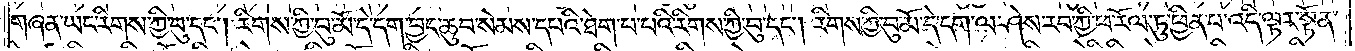གཞན་ཡང་རིགས་ཀྱི་བུ་དང༌། རིགས་ཀྱི་བུ་མོ་དེ་དག་བྱང་ཆུབ་སེམས་དཔའི་ཐེག་པ་པའི་རིགས་ཀྱི་བུ་དང༌། རིགས་ཀྱི་བུ་མོ་དེ་དག་ལ་ཤེས་རབ་ཀྱི་ཕ་རོལ་ཏུ་ཕྱིན་པ་འདི་ལྟར་སྟོན་
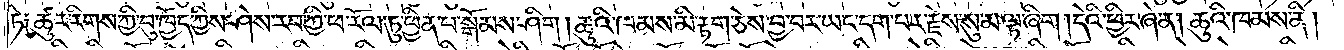ཏེ༑ ཚུར་རིགས་ཀྱི་བུ་ཁྱོད་ཀྱིས་ཤེས་རབ་ཀྱི་ཕ་རོལ་ཏུ་ཕྱིན་པ་སྒོམས་ཤིག །ཆུའི་ཁམས་མི་རྟག་ཅེས་བྱ་བར་ཡང་དག་པར་རྗེས་སུ་མ་ལྟ་ཞིག །དེ་ཅིའི་ཕྱིར་ཞེ་ན། ཆུའི་ཁམས་ནི།
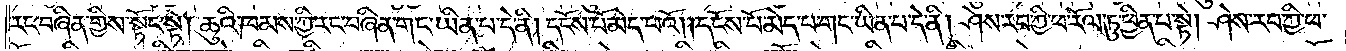རང་བཞིན་གྱིས་སྟོང་སྟེ། ཆུའི་ཁམས་ཀྱི་རང་བཞིན་གང་ཡིན་པ་དེ་ནི། དངོས་པོ་མེད་པའོ། །དངོས་པོ་མེད་པ་གང་ཡིན་པ་དེ་ནི། ཤེས་རབ་ཀྱི་ཕ་རོལ་ཏུ་ཕྱིན་པ་སྟེ། ཤེས་རབ་ཀྱི་ཕ་
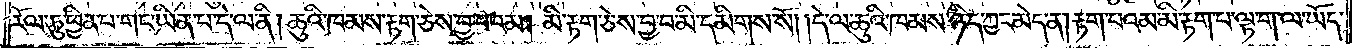རོལ་ཏུ་ཕྱིན་པ་གང་ཡིན་པ་དེ་ལ་ནི། ཆུའི་ཁམས་རྟག་ཅེས་བྱ་བའམ། མི་རྟག་ཅེས་བྱ་བ་མི་དམིགས་སོ། །དེ་ལ་ཆུའི་ཁམས་ཉིད་ཀྱང་མེད་ན། རྟག་པའམ་མི་རྟག་པ་ལྟ་ག་ལ་ཡོད་
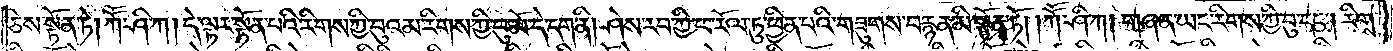ཅེས་སྟོན་ཏེ། ཀཽ་ཤི་ཀ། དེ་ལྟར་སྟོན་པའི་རིགས་ཀྱི་བུའམ་རིགས་ཀྱི་བུ་མོ་དེ་དག་ནི། ཤེས་རབ་ཀྱི་ཕ་རོལ་ཏུ་ཕྱིན་པའི་གཟུགས་བརྙན་མི་སྟོན་ཏོ། །ཀཽ་ཤི་ཀ། གཞན་ཡང་རིགས་ཀྱི་བུ་དང༌། རིགས་
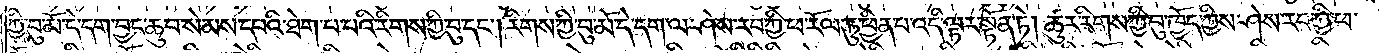ཀྱི་བུ་མོ་དེ་དག་བྱང་ཆུབ་སེམས་དཔའི་ཐེག་པ་པའི་རིགས་ཀྱི་བུ་དང༌། རིགས་ཀྱི་བུ་མོ་དེ་དག་ལ་ཤེས་རབ་ཀྱི་ཕ་རོལ་ཏུ་ཕྱིན་པ་འདི་ལྟར་སྟོན་ཏེ། ཚུར་རིགས་ཀྱི་བུ་ཁྱོད་ཀྱིས་ཤེས་རབ་ཀྱི་ཕ་
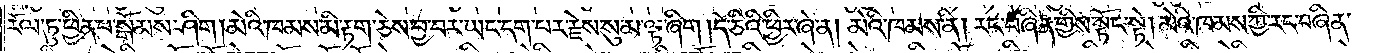རོལ་ཏུ་ཕྱིན་པ་སྒོམས་ཤིག །མེའི་ཁམས་མི་རྟག་ཅེས་བྱ་བར་ཡང་དག་པར་རྗེས་སུ་མ་ལྟ་ཞིག །དེ་ཅིའི་ཕྱིར་ཞེ་ན། །མེའི་ཁམས་ནི། རང་བཞིན་གྱིས་སྟོང་སྟེ། མེའི་ཁམས་ཀྱི་རང་བཞིན་
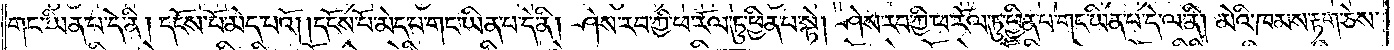གང་ཡིན་པ་དེ་ནི། དངོས་པོ་མེད་པའོ། །དངོས་པོ་མེད་པ་གང་ཡིན་པ་དེ་ནི། ཤེས་རབ་ཀྱི་ཕ་རོལ་ཏུ་ཕྱིན་པ་སྟེ། ཤེས་རབ་ཀྱི་ཕ་རོལ་ཏུ་ཕྱིན་པ་གང་ཡིན་པ་དེ་ལ་ནི། མེའི་ཁམས་རྟག་ཅེས་
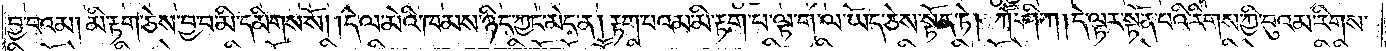བྱ་བའམ། མི་རྟག་ཅེས་བྱ་བ་མི་དམིགས་སོ། །དེ་ལ་མེའི་ཁམས་ཉིད་ཀྱང་མེད་ན། རྟག་པའམ་མི་རྟག་པ་ལྟ་ག་ལ་ཡོད་ཅེས་སྟོན་ཏེ། ཀཽ་ཤི་ཀ། དེ་ལྟར་སྟོན་པའི་རིགས་ཀྱི་བུའམ་རིགས་
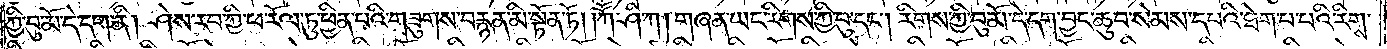ཀྱི་བུ་མོ་དེ་དག་ནི། ཤེས་རབ་ཀྱི་ཕ་རོལ་ཏུ་ཕྱིན་པའི་གཟུགས་བརྙན་མི་སྟོན་ཏོ། །ཀཽ་ཤི་ཀ། གཞན་ཡང་རིགས་ཀྱི་བུ་དང༌། རིགས་ཀྱི་བུ་མོ་དེ་དག་བྱང་ཆུབ་སེམས་དཔའི་ཐེག་པ་པའི་རིགས་
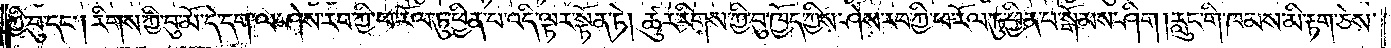ཀྱི་བུ་དང༌། རིགས་ཀྱི་བུ་མོ་དེ་དག་ལ་ཤེས་རབ་ཀྱི་ཕ་རོལ་ཏུ་ཕྱིན་པ་འདི་ལྟར་སྟོན་ཏེ། ཚུར་རིགས་ཀྱི་བུ་ཁྱོད་ཀྱིས་ཤེས་རབ་ཀྱི་ཕ་རོལ་ཏུ་ཕྱིན་པ་སྒོམས་ཤིག །རླུང་གི་ཁམས་མི་རྟག་ཅེས་
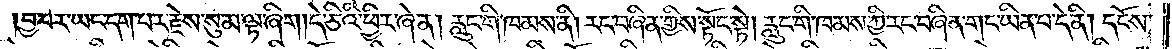བྱ་བར་ཡང་དག་པར་རྗེས་སུ་མ་ལྟ་ཞིག །དེ་ཅིའི་ཕྱིར་ཞེ་ན། རླུང་གི་ཁམས་ནི། རང་བཞིན་གྱིས་སྟོང་སྟེ། རླུང་གི་ཁམས་ཀྱི་རང་བཞིན་གང་ཡིན་པ་དེ་ནི། དངོས་
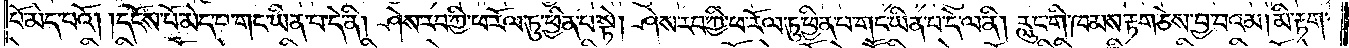པོ་མེད་པའོ། །དངོས་པོ་མེད་པ་གང་ཡིན་པ་དེ་ནི། ཤེས་རབ་ཀྱི་ཕ་རོལ་ཏུ་ཕྱིན་པ་སྟེ། ཤེས་རབ་ཀྱི་ཕ་རོལ་ཏུ་ཕྱིན་པ་གང་ཡིན་པ་དེ་ལ་ནི། རླུང་གི་ཁམས་རྟག་ཅེས་བྱ་བའམ། མི་རྟག་
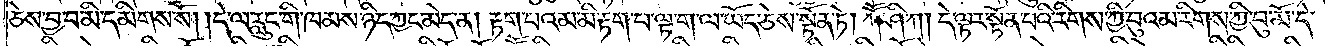ཅེས་བྱ་བ་མི་དམིགས་སོ། །དེ་ལ་རླུང་གི་ཁམས་ཉིད་ཀྱང་མེད་ན། རྟག་པའམ་མི་རྟག་པ་ལྟ་ག་ལ་ཡོད་ཅེས་སྟོན་ཏེ། ཀཽ་ཤི་ཀ། དེ་ལྟར་སྟོན་པའི་རིགས་ཀྱི་བུའམ་རིགས་ཀྱི་བུ་མོ་དེ་
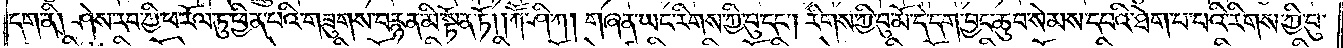དག་ནི། ཤེས་རབ་ཀྱི་ཕ་རོལ་ཏུ་ཕྱིན་པའི་གཟུགས་བརྙན་མི་སྟོན་ཏོ། །ཀཽ་ཤི་ཀ། གཞན་ཡང་རིགས་ཀྱི་བུ་དང༌། རིགས་ཀྱི་བུ་མོ་དེ་དག་བྱང་ཆུབ་སེམས་དཔའི་ཐེག་པ་པའི་རིགས་ཀྱི་བུ་
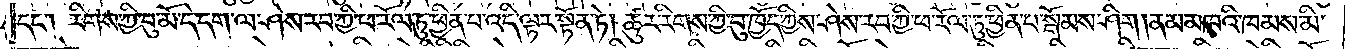དང༌། རིགས་ཀྱི་བུ་མོ་དེ་དག་ལ་ཤེས་རབ་ཀྱི་ཕ་རོལ་ཏུ་ཕྱིན་པ་འདི་ལྟར་སྟོན་ཏེ། ཚུར་རིགས་ཀྱི་བུ་ཁྱོད་ཀྱིས་ཤེས་རབ་ཀྱི་ཕ་རོལ་ཏུ་ཕྱིན་པ་སྒོམས་ཤིག །ནམ་མཁའི་ཁམས་མི་
